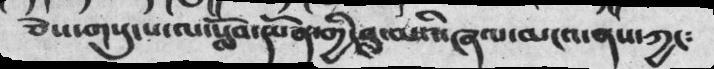ཅེས་གསུངས་ལ་སློབ་དཔོན་གྱི་བླ་མའི་ཞལ་མངའ་ནས་ཀྱང༴
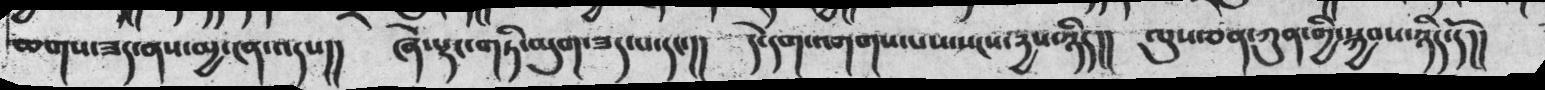ཆགས་ཟད་ནས་མྱ་ངན་འདས།།  ཞེ་སྡང་གཏི་མུག་ཟད་པ་དང་།།  དེ་དག་འགགས་པས་སངས་དྱས་ཉིད།།  ལུས་ཅན་ཀུན་གྱི་སྐྱབས་ཉིད་དོ།།
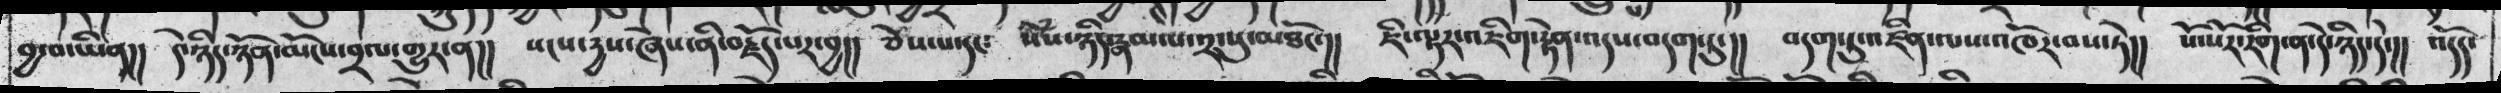བྱ་བ་ཡིན།།  དེ་ཉིད་ཉོན་མོངས་བྲལ་གྱུར་ན།།  སངས་དྱས་ཞེས་ནི་བརྗོད་པར་བྱ།།  ཅེས་པ་དང༴ སེཾས་ཉིད་རྣམ་ལ་༢་སུ་མཐོང་།།  ཇི་ལྟར་འཇིག་རྟེན་འདས་བདག་དུ་།།  བདག་ཏུ་འཛིན་ལས་འཁོར་བས་ཏེ།།  སོ་སོར་རིག་ན་དེ་ཉིད་དེ་།། འདོད་
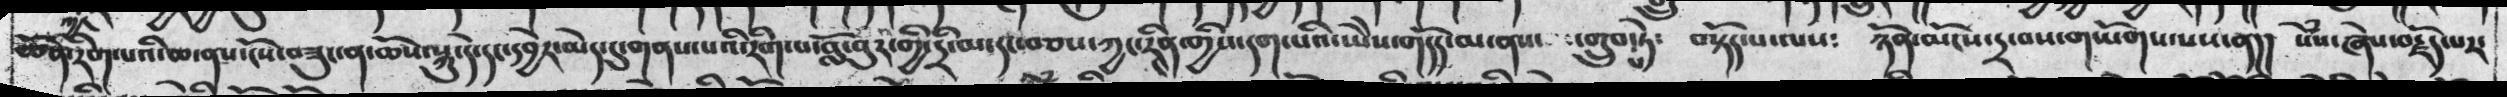ཚོན་རིག་པའི་ཚ་ནས་ངོས་བཟུང་ན་ཆོས་སྐུ་དེ་དང་དབྱེར་མེད་དུ་གནས་པའི་རིག་པ་བློ་བུར་གྱི་དྲི་མ་དང་བཅས་ཀྱང་རིན་གྱིས་དག་པའི་ཡེེས་གདོད་མ་ནས་   ་གྲུབ་པ་ཏེ༴  བསྟོད་པ་ལས༴  ཉོན་མོངས་དྲ་བས་གཡོགས་པས་ན།། སེཾས་ཞེས་བརྗོད་པར་
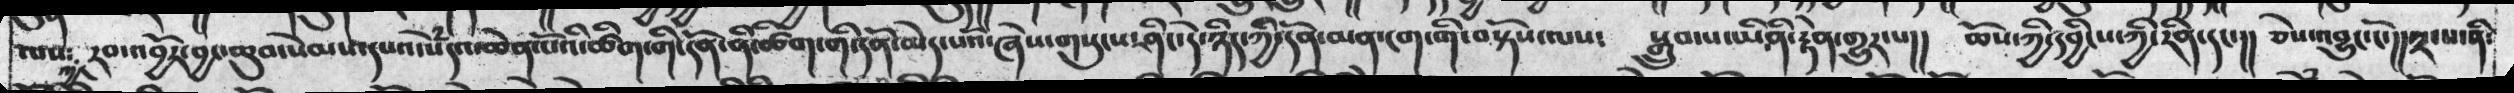ལས་ཀྱང་རབ་འབྱོར་བྱང་ཆུབ་སེམས་དཔའ་སེཾདའ་ཆེན་པོའི་ཚིག་གི་དོན་ནི་ཚིག་གི་དོན་མེད་པའི་ཞེས་གསུངས་ཤིང་དེ་ཉིད་ཀྱི་དོན་མན་ངག་གི་བསྟོས་ལས༴  སྒྲུབ་པ་ཡིཤི་རྟེན་གྱུར་པ།།  ཆོས་ཀྱི་དབྱིངས་ཀྱི་རིན་དང་།།  ཅེས་འབྱུང་ངོ་།།༢་པ་ནི་
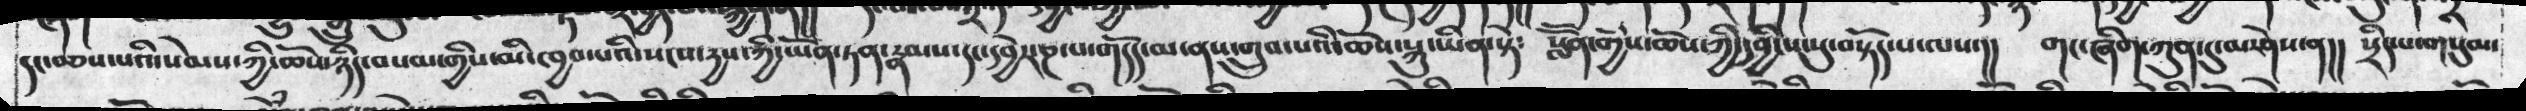དང་བཅས་པའི་སེམས་ཀྱི་ཆོས་ཉིད་བསམ་གྱིས་མི་ཁྱབ་པའི་སངས་རྒྱས་ཀྱི་ཡོན་ཏན་རྣམས་དང་དབྱེར་ཎ་པ་གདོད་མ་ནས་གྲུབ་པའི་ཆོས་སྐུ་ཡིན་སྟེ༴  སློོན་གྱིས་ཆོས་ཀྱི་དབྱིངས་སུ་བསྟོད་པ་ལས་།།  གང་ཞིག་ཀུན་དུ་མ་ཤེས་ན།།  སྲིད་པ་གསུམ་
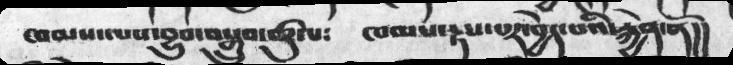ཁམས་ལས་བྱུབ་བསྒྲུབ་ཚུལ༴  ཁམས་རྟས་པར་བྱེད་པའི་རྐྱེན་ནོ།།
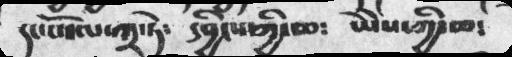དང་པོ་ལ་ཀྲ་ཏེ༴  དབྱིངས་ཀྱི་ཆ༴  ཡཻས་ཀྱི་ཆ༴
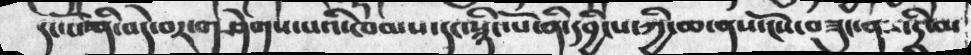དང་པོ་ནི་བདེ་བར་གཤེགས་པའི་ཁམས་དང་སྙིང་པོ་ནི་དབྱིངས་ཀྱི་ཆ་ནས་ངོས་བཟུང་ནས་དྲི་མ
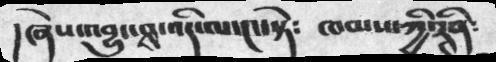།ཞེས་འབྱུང་བླ་འདི་ལ་༤་སྟེ༴  ཁམས་ཀྱི་རྜནི༴
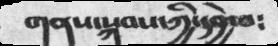གནས་སྐབས་ཀྱི་དབྱེ་བ༴
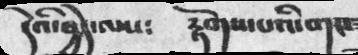དེའི་བྱེད་ལས༴  རྟོགས་པའི་གང་
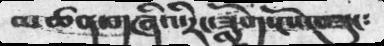མཚན་གཞིའི་རང་ཟློག་ངོས་བཟུང༴
